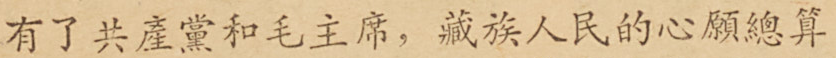有了共產黨和毛主席，藏族人民的心願總算
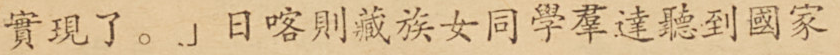實現了。」日喀則藏族女同學羣達聽到國家
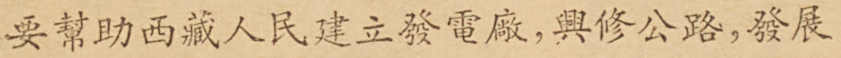要幫助西藏人民建立發電廠，興修公路，發展
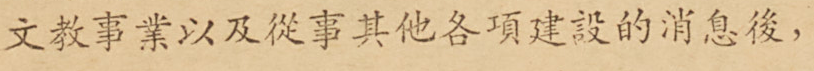文教事業以及從事其他各項建設的消息後，
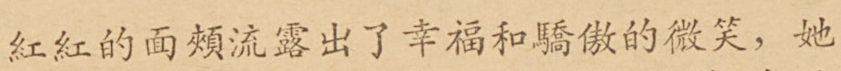紅紅的面頰流露出了幸福和驕傲的微笑，她
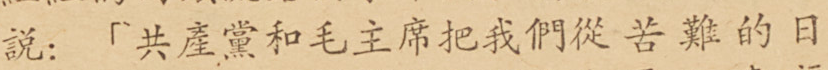說：「共產黨和毛主席把我們從苦難的日
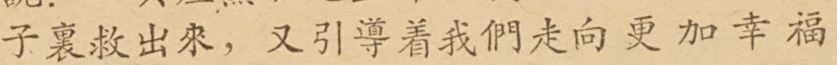子裏救出來，又引導着我們走向更加幸福
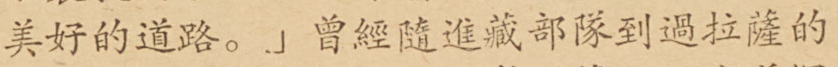美好的道路。」曾經隨進藏部隊到過拉薩的
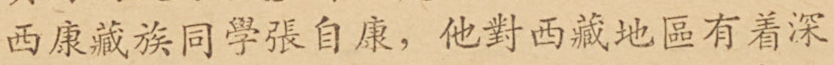西康藏族同學張自康，他對西藏地區有着深
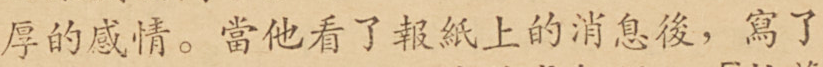厚的感情。當他看了報紙上的消息後，寫了
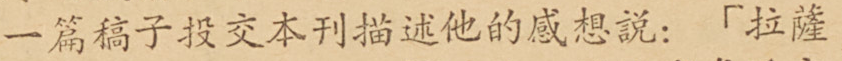一篇稿子投交本刊描述他的感想說：「拉薩
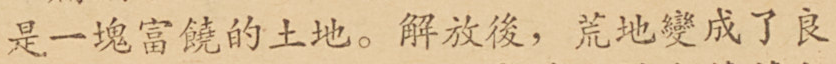是一塊富饒的土地。解放後，荒地變成了良
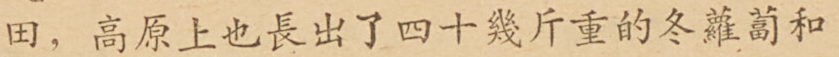田，高原上也長出了四十幾斤重的冬蘿蔔和
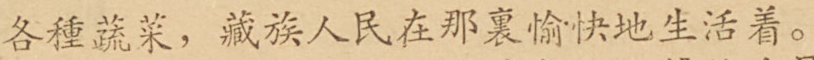各種蔬菜，藏族人民在那裏愉快地生活着。
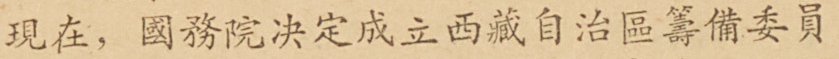現在，國務院決定成立西藏自治區籌備委員
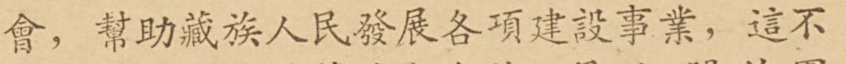會，幫助藏族人民發展各項建設事業，這不
